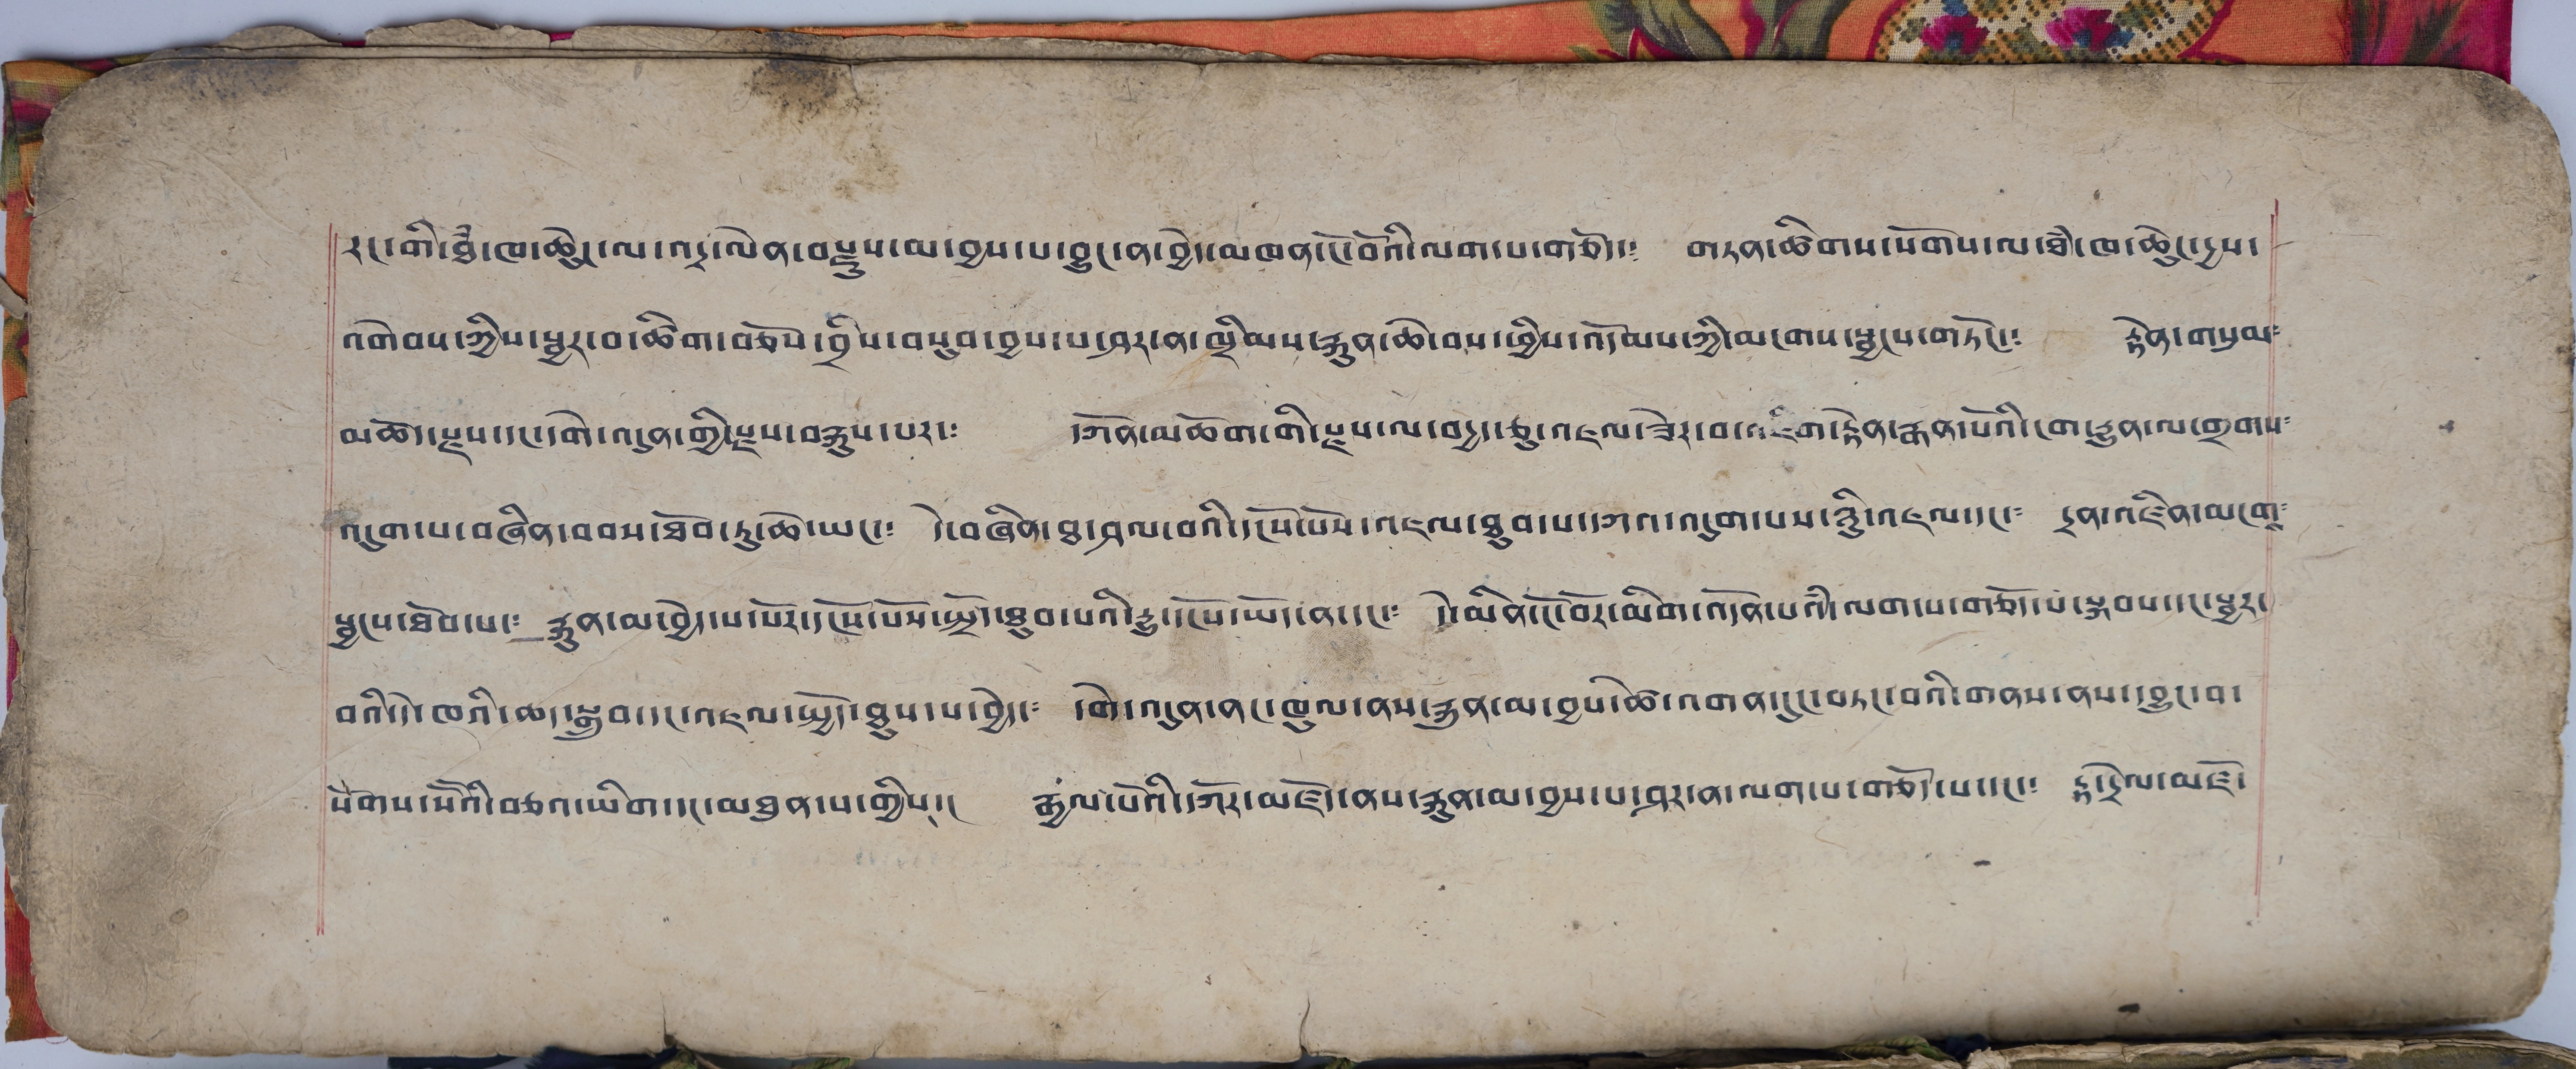རང་གི་ཐཾ་ཁ་ཆེུང་ལ་འདྲ་ལེན་བརྫུས་མ་བྱས་པ་བྱུང་ན་བྱེད་མཁན་ངོ་བོའི་ལག་པ་གཅོད་༴ གཏན་ཚིགས་སོགས་ལ་ཐཾ་ཁ་ཆེུང་དྱས་
འགེབས་ཀྱིས་སྦྱར་བ་ཚིག་བཅོས་བྲིས་བསུབ་བྱས་པ་ཤར་ན་ཁྲིམས་རྐུན་ཆེ་བས་ཕྱིས་འདོམས་ཀྱི་མངགས་སྦྱངས་གཏོང་༴ རྟེན་གསུམ༴
མཆོད་རྫས་དང་དགེ་འདུན་གྱི་རྫས་བརྐུས་པར་༴ དཀོན་མཆོག་གི་རྫས་ལེ་བདྱད་ཅུ་འཇལ་ཟེར་བ་འཇིག་རྟེན་རྒན་པོའི་ངག་རྒྱུན་ལ་གྲགས༴
འདུག་པ་བཞིན་བབས་ཐོབ་ཏུ་ཆེ་ཡང་༴ དེ་བཞིན་བྱ་ཤལ་བའི་དངོས་པོས་འཇལ་ཐུབ་པ་དཀའ་འདུག་པས་ཉིུ་འཇལ་དང་༴ དྲན་འཛིན་མངགས་
སྦྱངས་ཐོབ་པ་༴ རྐུན་མ་བྱེད་པ་སོར་དངས་པོས་སྤྲོ་ཐུབ་པའི་དྱ་ངོས་ཡོད་ན་དང་༴ དེ་མིན་ངོ་བོར་མིག་འདོན་པའི་ལག་པ་གཅོད་པ་སྐབས་དང་སྦྱར་
བའི་དེ་ཁའི་ཆ་སྒྲུབ་དང་འཇལ་སྤྱོད་ཐུས་པ་བྱེད་༴ དགེ་འདུན་ནང་ཁུལ་ནས་རྐུན་མ་བྱས་ཚེ་འགན་དུང་བཏང་བའི་གནས་ནས་དབྱུང་བ་
སོགས་སོ་སོའི་བཅའ་ཡིག་དང་མཐུན་པ་གྱིས།། རྒྱལ་པོའི་དཀོར་མཛོད་ནས་རྐུན་མ་བྱས་པ་ཤར་ན་ལག་པ་གཅོད་པ་དང་༴ རྟ་དྲེལ་མཛོ་
